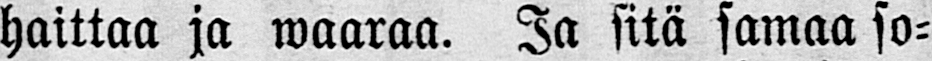haittaa ja waaraa. Ja sitä samaa so-
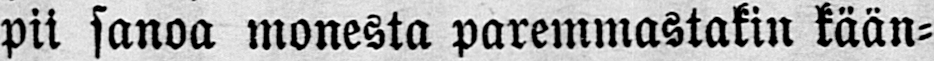pii sanoa monesta paremmastakin kään-
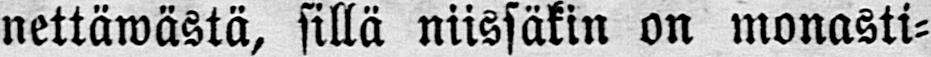nettäwästä, sillä niissäkin on monasti-
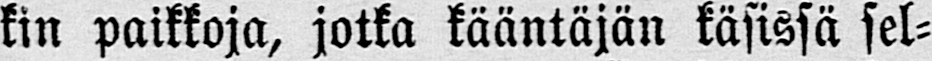kin paikkoja, jotka kääntäjän käsissä sel-
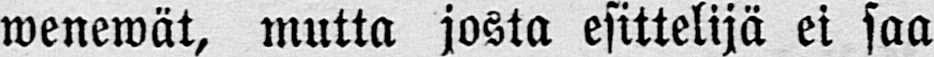wenewät, mutta josta esittelijä ei saa
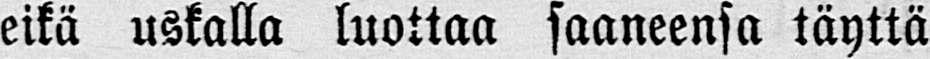eikä uskalla luottaa saaneensa täyttä
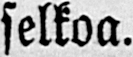selkoa.
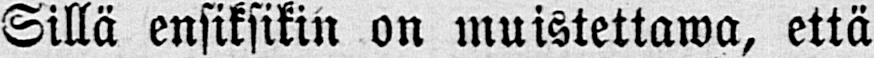Sillä ensiksikin on muistettawa, että
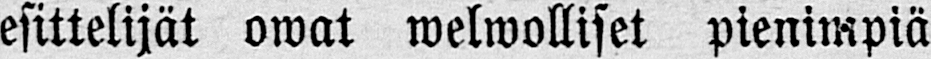esittelijät owat welwolliset pienimpiä
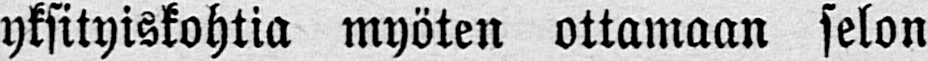yksityiskohtia myöten ottamaan selon
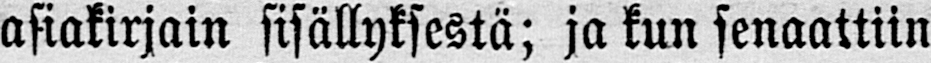asiakirjain sisällyksestä; ja kun senaattiin
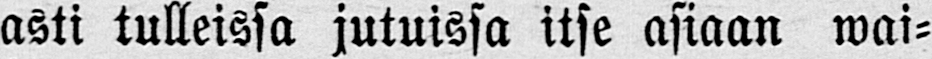asti tulleissa jutuissa itse asiaan wai-
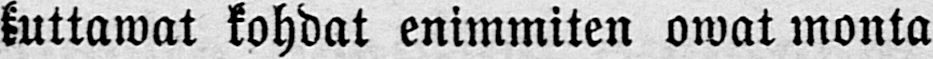kuttawat kohdat enimmiten owat monta
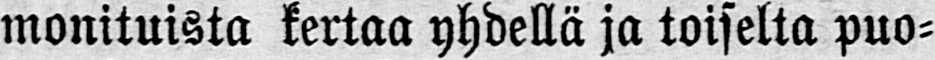monituista kertaa yhdellä ja toiselta puo-
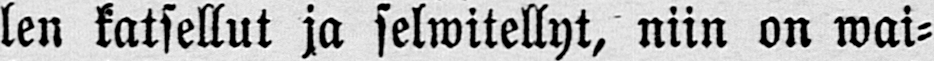len katsellut ja selwitellyt, niin on wai-
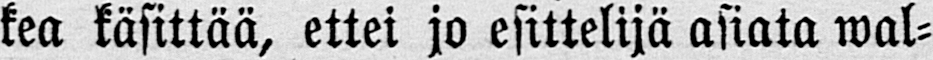kea käsittää, ettei jo esittelijä asiata wal-
